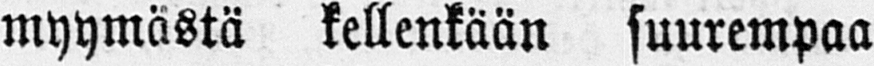myymästä kellenkään suurempaa
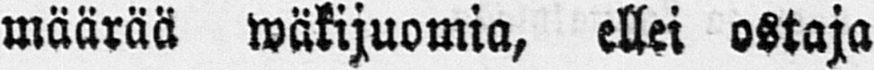määrää wäkijuomia, ellei ostaja
